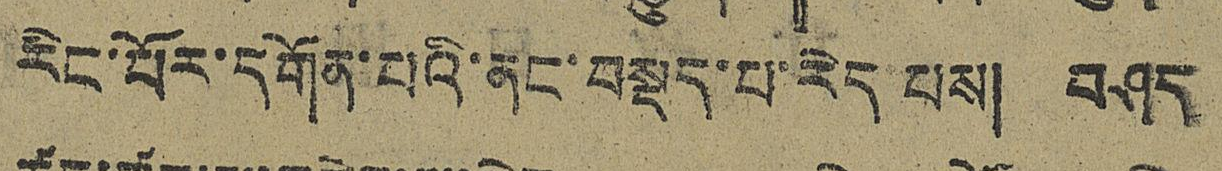རིང་པོར་དགོན་པའི་ནང་བསྡད་པ་རེད པས། བཤད
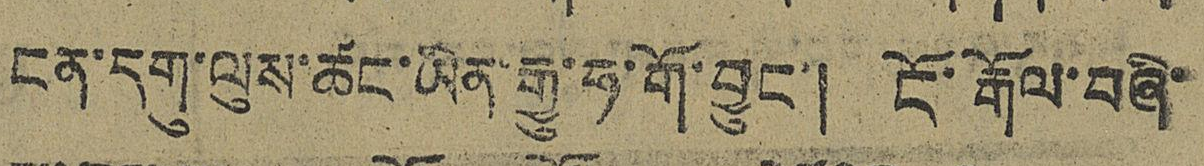ངན་དགུ་ལུས་ཚང་ཡིན་རྒྱུ་ཧ་གོ་བྱུང་། ངོ་རྒོལ་བཞི་
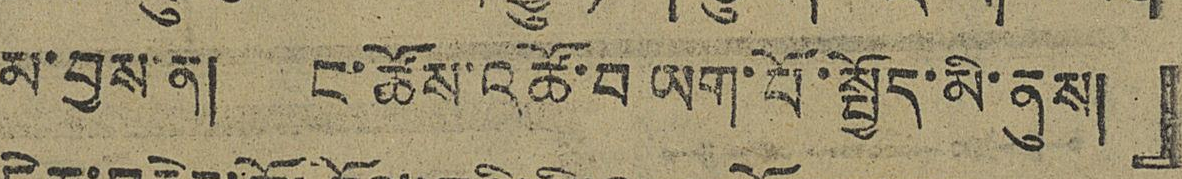མ་བྱས་ན། ང་ཚོས་འཚོ་བ ཡག་པོ་སྤྱོད་མི་ནུས།』
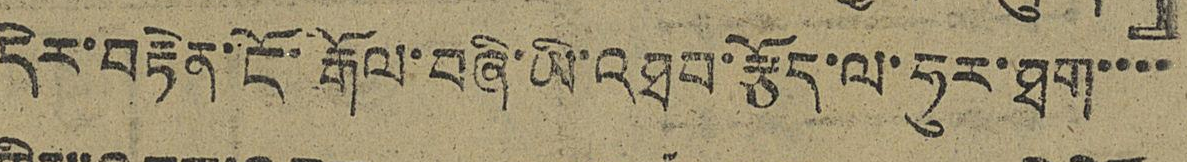དེར་བརྟེན་ངོ་རྒོལ་བཞི་ཡི་འཐབ་རྩོད་ལ་ཧུར་ཐག་་་་
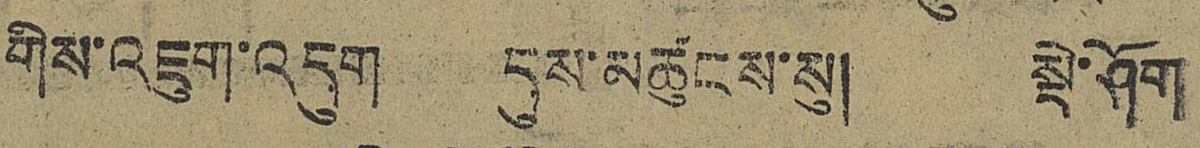གིས་འཇུག་འདུག དུས་མཚུངས་སུ། སྡེ་ཤོག
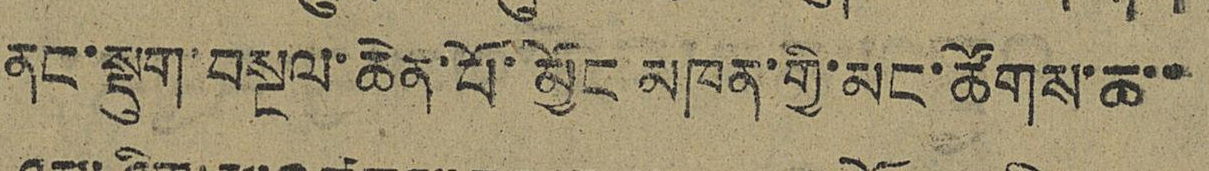ནང་སྡུག་བསྔལ་ཆེན་པོ་མྱོང་མཁན་གྱི་མང་ཚོགས་ཆ་་
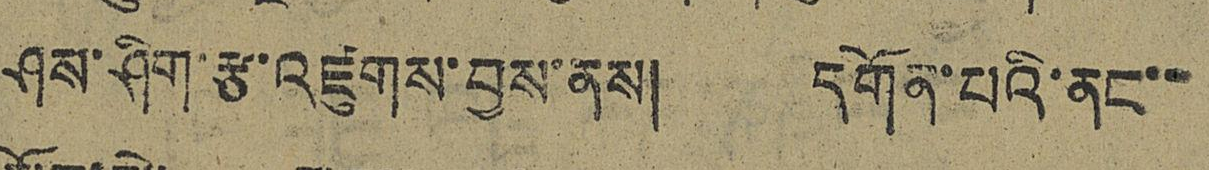ཤས་ཤིག་རྩ་འཛུགས་བྱས་ནས། དགོན་པའི་ནང་་
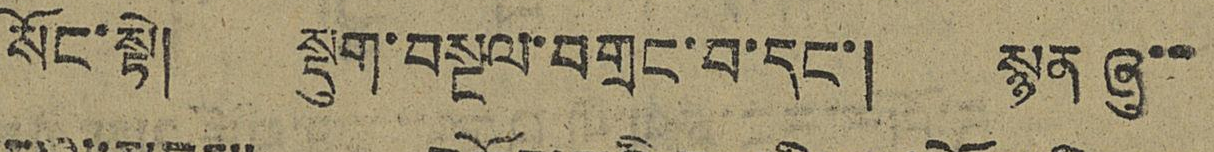སོང་སྟེ། སྡུག་བསྔལ་བགྲང་བ་དང་། སྙན་ཞུ་་
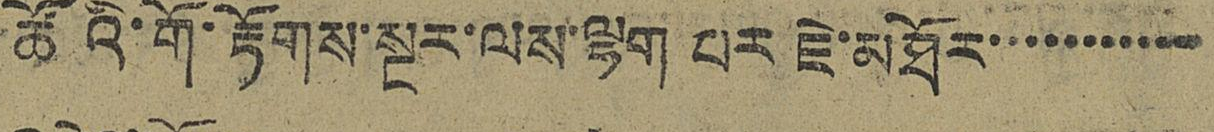ཚོའི་གོ་རྟོགས་སྔར་ལས་ལྷག པར་ཇེ་མཐོར་་་་་་་་་་
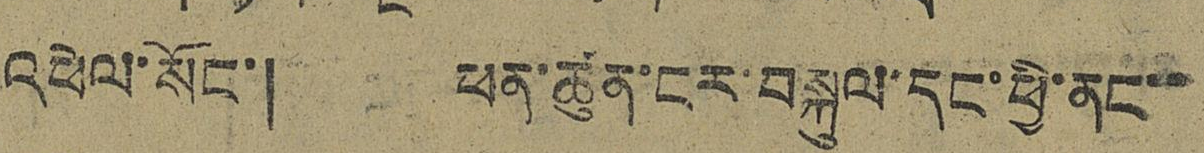འཕེལ་སོང་། ཕན་ཚུན་ངར་བསྐུལ་དང་ཕྱི་ནང་
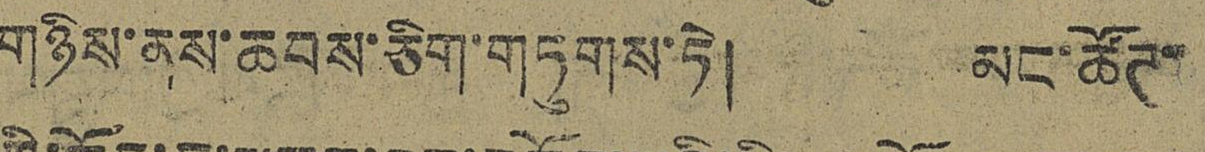གཉིས་ནས་ཆབས་ཅིག་གཏུགས་ཏེ། མང་ཚོཊ་
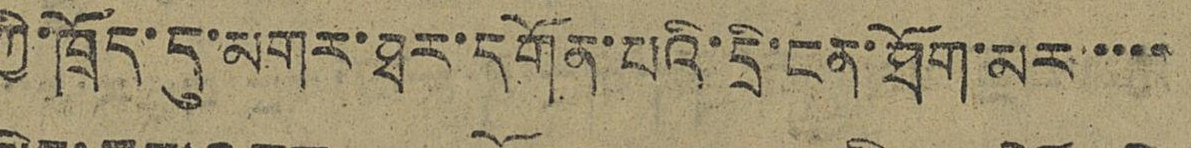ཀྱི་ཁྲོད་དུ་མགར་ཐར་དགོན་པའི་དྲི་ངན་ཐོག་མར་་་་་
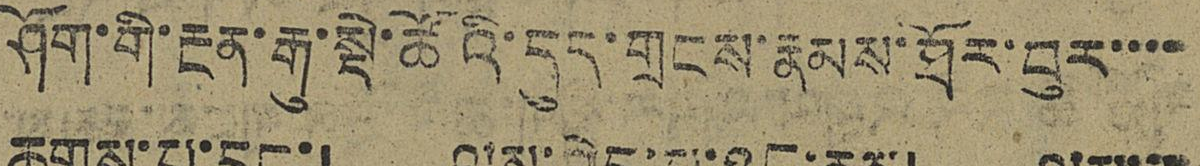ཤོག་གི་རྔན་རྒྱ་སྡེ་ཚོའི་དུད་གྲངས་རྣམས་ཐོར་བུར་་་་
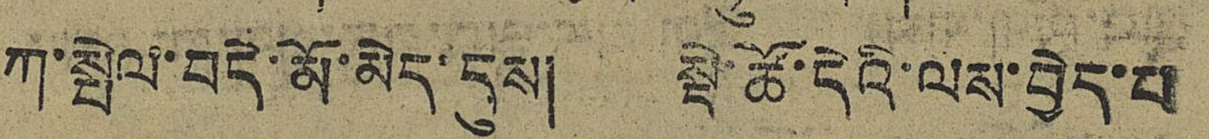ཀ་སྤེལ་བདེ་མོ་མེད་དུས། སྡེ་ཚོ་དེའི་ལས་བྱེད་པ་
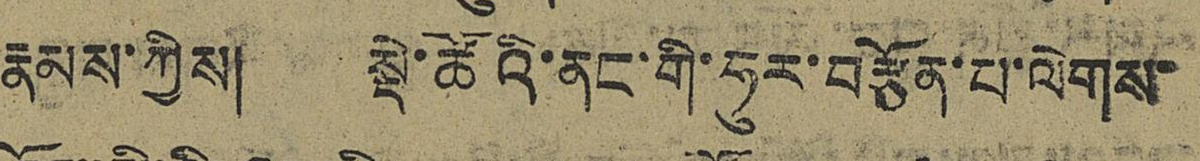རྣམས་ཀྱིས། སྡེ་ཚོའི་ནང་གི་ཧུར་བརྩོན་པ་ལེགས་
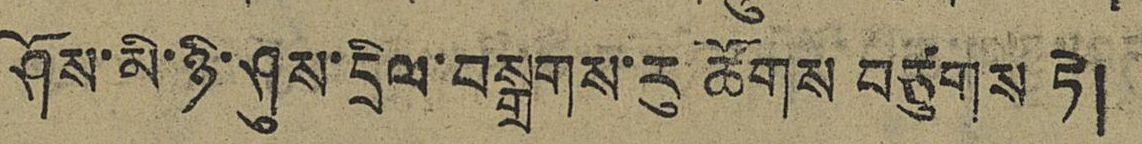ཤོས་མི་ཉི་ཤུས་དྲིལ་བསྒྲགས་རུ་ཚོགས བཙུགས ཏེ།
